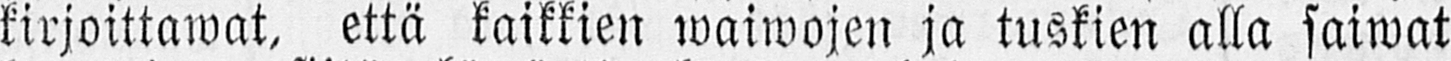kirjoittawat, että kaikkien waiwojen ja tuskien alla saiwat
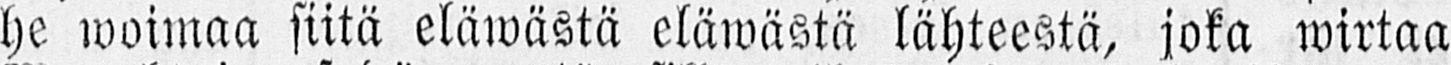he woimaa siitä eläwästä eläwästä lähteestä, joka wirtaa
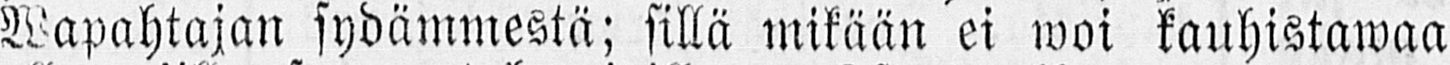Wapahtajan sydämmestä; sillä mikään ei woi kauhistawaa
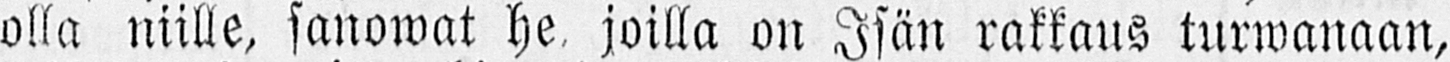olla niille, sanowat he joilla on Isän rakkaus turwanaan,
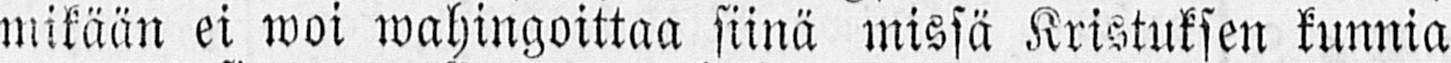mikään ei woi wahingoittaa siinä missä Kristuksen kunnia
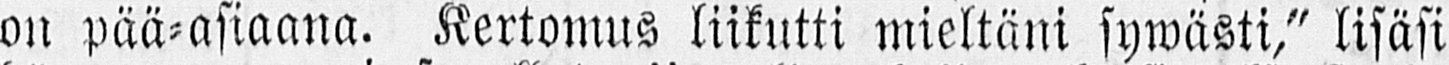on pää-asiaana. Kertomus liikutti mieltäni sywästi," lisäsi
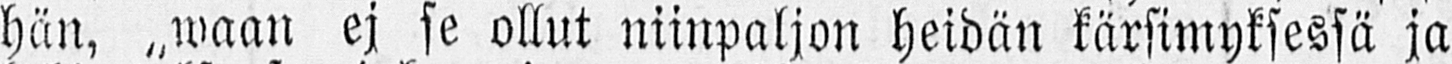hän, „waan ej se ollut niinpaljon heidän kärsimyksessä ja
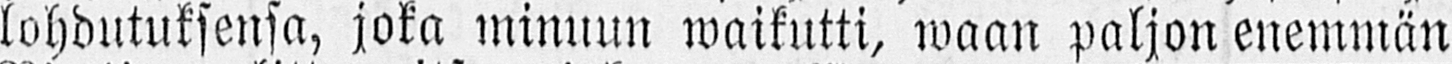lohdutuksensa, joka minuun waikutti, waan paljon enemmän
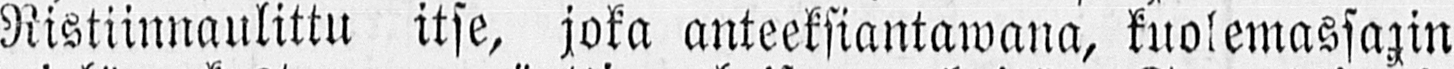Ristiinnaulittu itse, joka anteeksiantawana, kuolemassakin
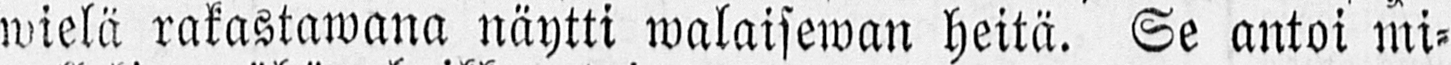wielä rakastawana näytti walaisewan heitä. Se antoi mi-
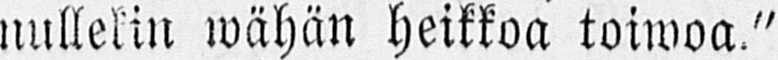nullekin wähän heikkoa toiwoa."
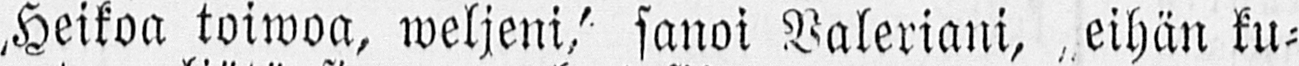„Heikoa toiwoa, weljeni,' sanoi Valeriani, „eihän ku-
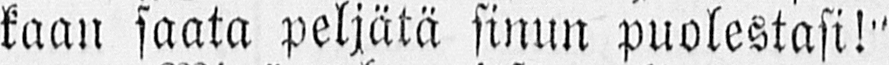kaan saata peljätä sinun puolestasi!"
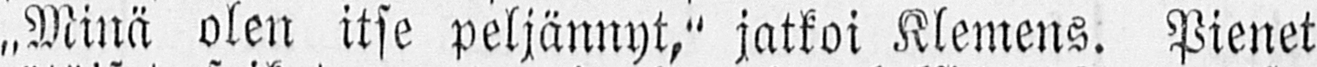„Minä olen itse peljännyt," jatkoi Klemens. Pienet
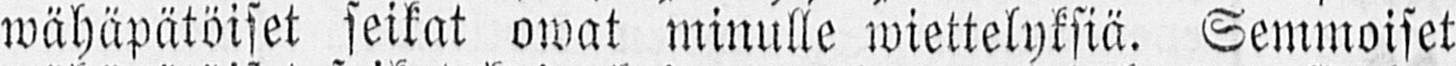wähäpätöiset seikat owat minulle wiettelyksiä. Semmoiset
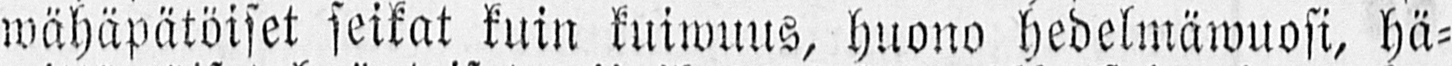wähäpätöiset seikat kuin kuiwuus, huono hedelmäwuosi, hä-
